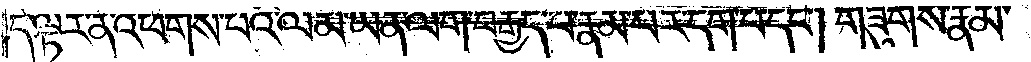དེ་ལྟར་ན་འཕགས་པའི་ལམ་ཡན་ལག་བརྒྱད་པ་རྣམ་པར་དག་པ་དང༌། གཟུགས་རྣམ་
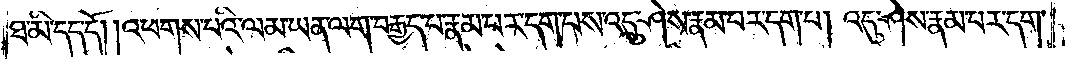ཐ་མི་དད་དོ། །འཕགས་པའི་ལམ་ཡན་ལག་བརྒྱད་པ་རྣམ་པར་དག་པས་འདུ་ཤེས་རྣམ་པར་དག་པ། འདུ་ཤེས་རྣམ་པར་དག་
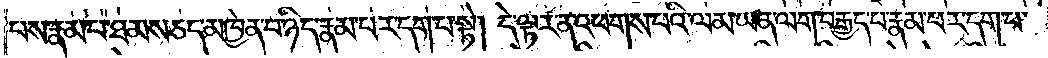པས་རྣམ་པ་ཐམས་ཅད་མཁྱེན་པ་ཉིད་རྣམ་པར་དག་པ་སྟེ། དེ་ལྟར་ན་འཕགས་པའི་ལམ་ཡན་ལག་བརྒྱད་པ་རྣམ་པར་དག་པ་
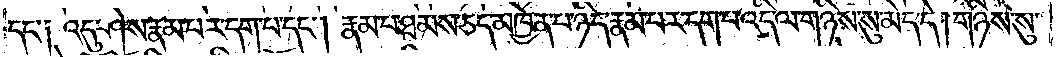དང་༑ འདུ་ཤེས་རྣམ་པར་དག་པ་དང༌། རྣམ་པ་ཐམས་ཅད་མཁྱེན་པ་ཉིད་རྣམ་པར་དག་པ་འདི་ལ་གཉིས་སུ་མེད་དེ། གཉིས་སུ་
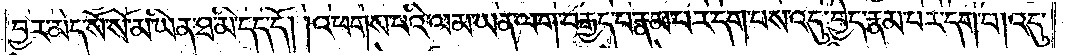བྱར་མེད་སོ་སོ་མ་ཡིན་ཐ་མི་དད་དོ། །འཕགས་པའི་ལམ་ཡན་ལག་བརྒྱད་པ་རྣམས་པར་དག་པས་འདུ་བྱེད་རྣམ་པར་དག་པ། འདུ་
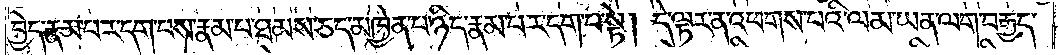བྱེད་རྣམ་པར་དག་པས་རྣམ་པ་ཐམས་ཅད་མཁྱེན་པ་ཉིད་རྣམ་པར་དག་པ་སྟེ། དེ་ལྟར་ན་འཕགས་པའི་ལམ་ཡན་ལག་བརྒྱད་
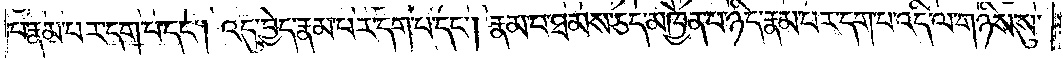པ་རྣམ་པར་དག་པ་དང༌། འདུ་བྱེད་རྣམ་པར་དག་པ་དང༌། རྣམ་པ་ཐམས་ཅད་མཁྱེན་པ་ཉིད་རྣམ་པར་དག་པ་འདི་ལ་གཉིས་སུ་
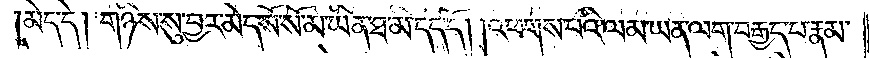མེད་དེ། གཉིས་སུ་བྱར་མེད་སོ་སོ་མ་ཡིན་ཐ་མི་དད་དོ། །འཕགས་པའི་ལམ་ཡན་ལག་བརྒྱད་པ་རྣམ་
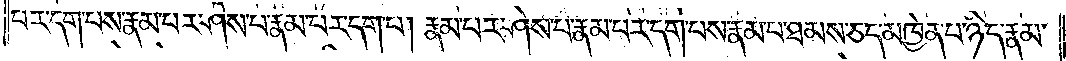པར་དག་པས་རྣམ་པར་ཤེས་པ་རྣམ་པར་དག་པ། རྣམ་པར་ཤེས་པ་རྣམ་པར་དག་པས་རྣམ་པ་ཐམས་ཅད་མཁྱེན་པ་ཉིད་རྣམ་
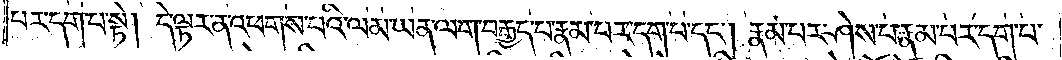པར་དག་པ་སྟེ། དེ་ལྟར་ན་འཕགས་པའི་ལམ་ཡན་ལག་བརྒྱད་པ་རྣམ་པར་དག་པ་དང༌། རྣམ་པར་ཤེས་པ་རྣམ་པར་དག་པ་
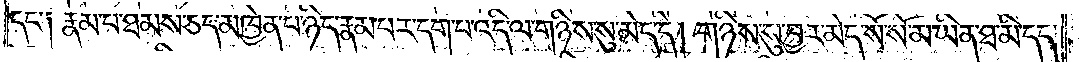དང་༑ རྣམ་པ་ཐམས་ཅད་མཁྱེན་པ་ཉིད་རྣམ་པར་དག་པ་འདི་ལ་གཉིས་སུ་མེད་དེ། གཉིས་སུ་བྱར་མེད་སོ་སོ་མ་ཡིན་ཐ་མི་དད་
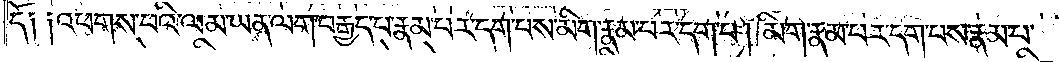དོ༑ ༑འཕགས་པའི་ལམ་ཡན་ལག་བརྒྱད་པ་རྣམ་པར་དག་པས་མིག་རྣམ་པར་དག་པ། མིག་རྣམ་པར་དག་པས་རྣམ་པ་
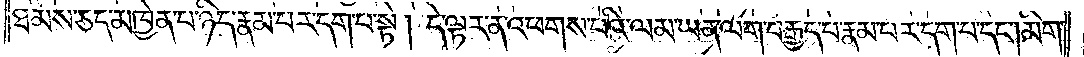ཐམས་ཅད་མཁྱེན་པ་ཉིད་རྣམ་པར་དག་པ་སྟེ། དེ་ལྟར་ན་འཕགས་པའི་ལམ་ཡན་ལག་བརྒྱད་པ་རྣམས་པར་དག་པ་དང༌། མིག་
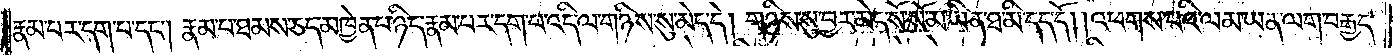རྣམ་པར་དག་པ་དང༌། རྣམ་པ་ཐམས་ཅད་མཁྱེན་པ་ཉིད་རྣམ་པར་དག་པ་འདི་ལ་གཉིས་སུ་མེད་དེ། གཉིས་སུ་བྱར་མེད་སོ་སོ་མ་ཡིན་ཐ་མི་དད་དོ། །འཕགས་པའི་ལམ་ཡན་ལག་བརྒྱད་
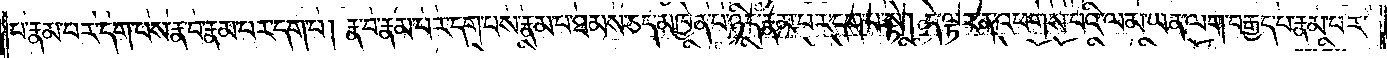པ་རྣམ་པར་དག་པས་རྣ་བ་རྣམས་པར་དག་པ། རྣ་བ་རྣམ་པར་དག་པས་རྣམ་པ་ཐམས་ཅད་མཁྱེན་པ་ཉིད་རྣམ་པར་དག་པ་སྟེ། དེ་ལྟར་ན་འཕགས་པའི་ལམ་ཡན་ལག་བརྒྱད་པ་རྣམ་པར་
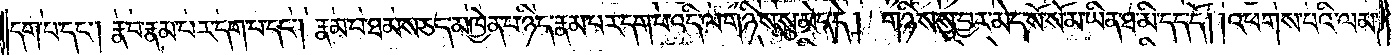དག་པ་དང༌། རྣ་བ་རྣམས་པར་དག་པ་དང༌། རྣམ་པ་ཐམས་ཅད་མཁྱེན་པ་ཉིད་རྣམ་པར་དག་པ་འདི་ལ་གཉིས་སུ་མེད་དེ། གཉིས་སུ་བྱར་མེད་སོ་སོ་མ་ཡིན་ཐ་མི་དད་དོ། །འཕགས་པའི་ལམ་
